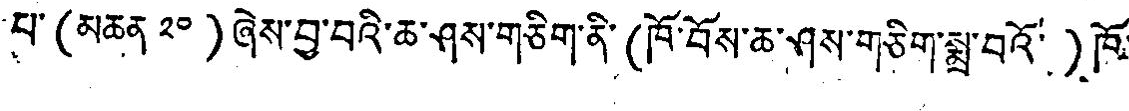པ་(མཆན ༢༠)ཞེས་བྱ་བའི་ཆ་ཤས་གཅིག་ནི་(ཁོ་བོས་ཆ་ཤས་གཅིག་སྨྲ་བའོ་)ཁོ་
